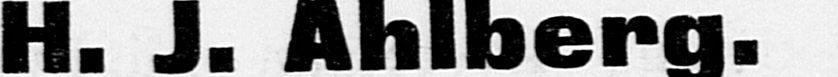H. J. Åhlberg.
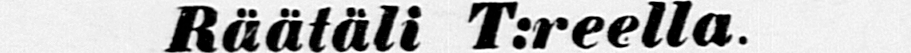Räätäli T:reela.
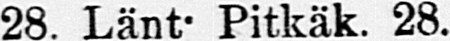28. Länt Pitkäk. 28.
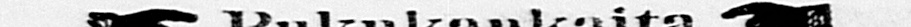Pukukankaita
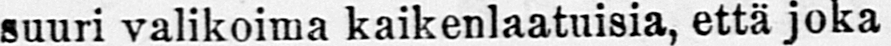suuri valikoima kaikenlaatuisia, että joka
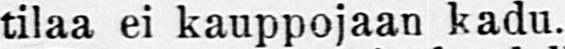tilaa ei kauppojaan kadu.
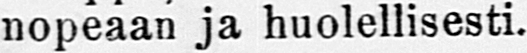Työt nopeaan ja huolellisesti.
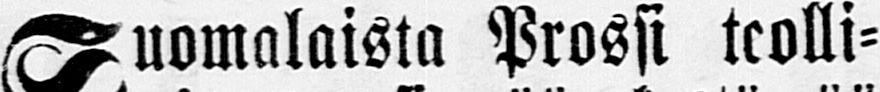Suomalaista Prossi teolli-
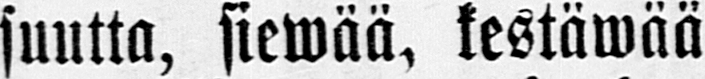suutta, siewää, kestäwää
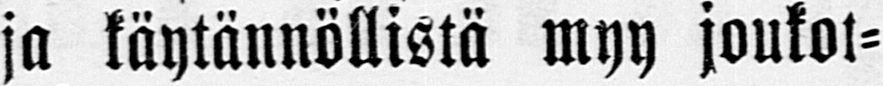ja käytännöllistä myy joukot-
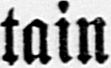tain
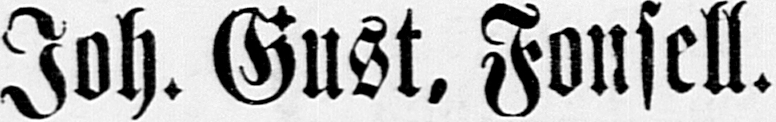Joh. Gust. Fonsell.
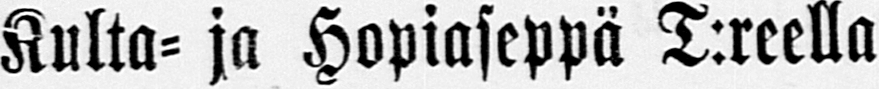Kulta- ja Hopiaseppä T:reella
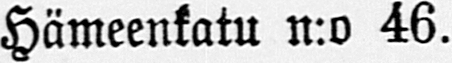Hämeenkatu n:o 46.
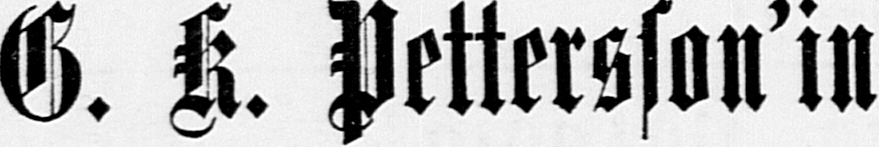G. K. Pettersson'in
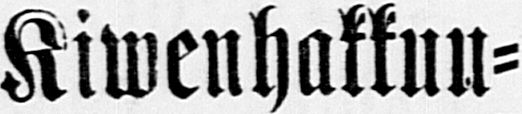Kiwenhakkuu-
